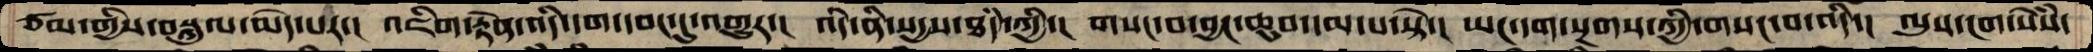ཙམ་གྱིས་བསྐུལ་མེད་པར་།  འཇིག་རྟེན་འདི་དག་དབང་དུ་འགྱུར་།  འདི་ནི་སདྱས་ཐཾད་ཀྱི་།  གསང་བ་བྱང་ཆུབ་དམ་པ་སྟེ་།  ཡང་དག་སྔགས་ཀྱི་གསང་བ་འདི་།  ལུས་ངག་སེཾས་
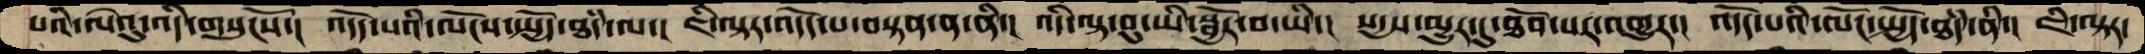པའི་ལེའུ་འདི་གསུངསོ་།  འདོད་པའི་ལོངས་སྤྱོད་ཐཾད་ལ་།  ཇི་ལྟར་འདོད་པ་བསྟན་ན་ནི་།  འདི་ལྟ་བུ་ཡི་སྦྱོར་བ་ཡི་།  སདྱས་མྱུར་དུ་ཐོབ་པར་འགྱུར་།  འདོད་པའི་ལོངས་སྤྱོད་ཐཾད་ནི་།  ཇི་ལྟར་
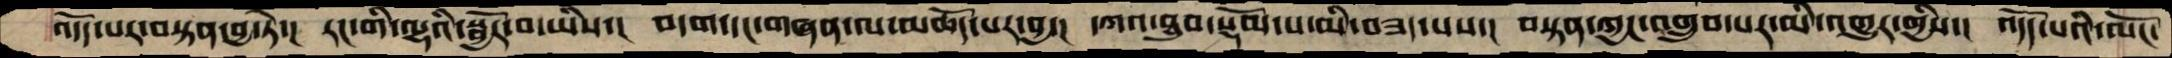འདོད་པར་བསྟན་བྱ་སྟེ་།  རང་གི་ལྷའི་སྦྱོར་བ་ཡིས་།  བདག་དང་གཞན་ལ་མཆོད་པར་བྱ་།  དཀའ་ཐུབ་སྡོམ་པ་མི་བཟད་པས་།  བསྟན་ཀྱང་འགྲུབ་པར་མི་འགྱུར་གྱིས་།  འདོད་པའི་ལོང་
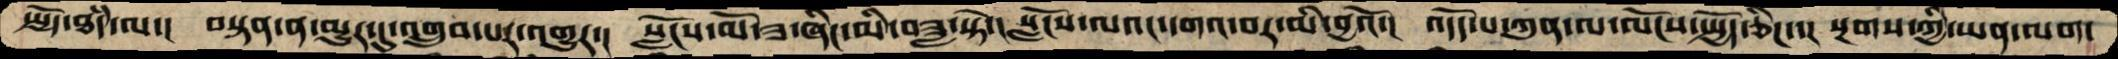སྤྱོད་ཐཾད་ལ་།  བསྟན་ན་མྱུར་དུ་འགྲུབ་པར་འགྱུར་།  སློངས་མོ་ཟ་ཞིང་མི་བཟླ་སྟེ་།  སློངས་ལའང་དགའ་བར་མི་བྱའོ་།  འདོད་པ་ཀུན་ལ་ལོངས་སྤྱོད་ཅིང་་།  སྔགས་ཀྱི་ཡན་ལག་
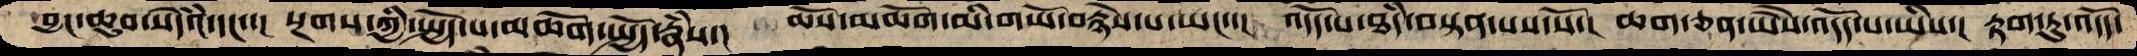བྱང་ཆུབ་སེདཾའ་དང་་།  སྔགས་ཀྱི་སྤྱོད་པ་མཆོག་སྤྱོད་རྣཾས་།  ཆོས་མཆོག་མི་གཡོ་བརྙེས་པ་ཡང་་།  འདོད་པ་ཐཾད་བསྟན་པས་སོ་།  ཆག་ཅན་ཡཻས་འདོད་པ་ཡིས་།  རྟག་ཏུ་འདོད་
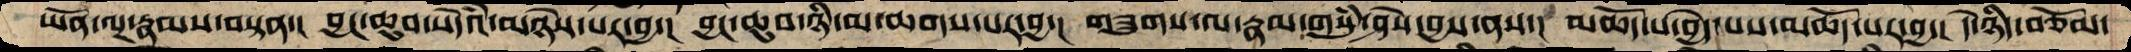ཡོན་ལྔ་རྣམས་བསྟན་།  བྱང་ཆུབ་སེདཾའ་མཉེས་པར་བྱ་།  བྱང་ཆུབ་ཉི་མ་ཆགས་པར་བྱ་།  གཟུགས་ལ་རྣམ་གསུཾ་ཤེས་བྱས་ནས་།  མཆོད་པ་བྱེད་པས་མཆོད་པར་བྱ་།  དེ་ཉིད་བཅོམ་
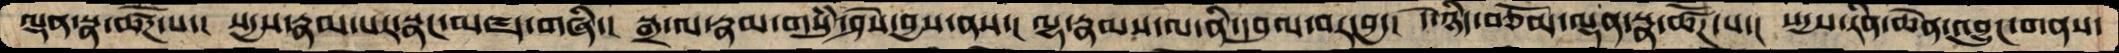ལྡན་སྣ་ཚོཌ་པ་།  སདྱས་རྣམ་པར་སྣང་མཛད་གཞི་།  སྒྲ་ལ་རྣམ་གསུཾ་ཤེས་བྱས་ནས་།  ལྷ་རྣམས་ལ་ནི་དབུལ་བར་བྱ་།  དེ་ཉིད་བཅོམ་ལྡན་སྣ་ཚོཌ་པ་།  སདྱས་རིན་ཆེན་འབྱུང་གནས་
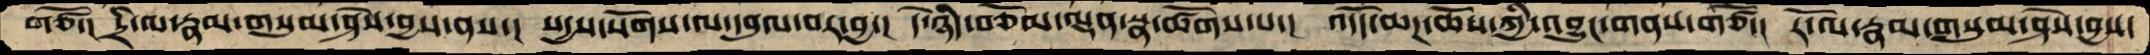གཙོ་།  དྲི་མ་རྣམ་གསུམ་ཤེས་བྱས་ནས་།  སདྱས་སོགས་ལ་དབུལ་བར་བྱ་།  དེ་ཉིད་བཅོམ་ལྡན་སྣ་ཚོགས་པ་།  འདོད་ཆཌ་ཆོས་ཀྱི་འབྱུང་གནས་གཙོ་།  རོ་ལ་རྣམ་གསུམ་ཤེས་བྱས་
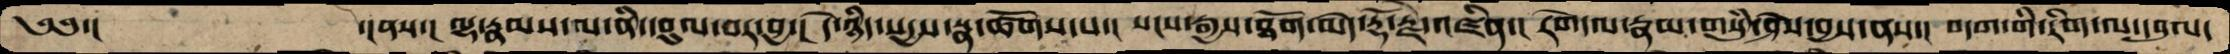༄༅་།     ་།ནས་།  ལྷ་རྣམས་ལ་ནི་དབུལ་བར་བྱ་།  དེ་ཉིད་སདྱས་སྣ་ཚོགས་པ་།  སངས་རྒྱས་ཐོག་མེད་རྡོ་རྗེ་འཛིན་།  རེག་ལ་རྣམ་གསུཾ་ཤེས་བྱས་ནས་།  བདག་གི་རིག་ལ་དབུལ་
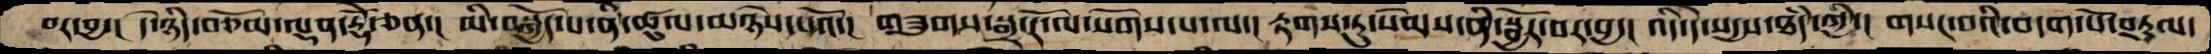བར་བྱ་།  དེ་ཉིད་བཅོམ་ལྡན་རྡོེ་ཅན་།  མི་བསྐྱོད་པ་ནི་ཚུལ་མཉེས་པའོ་།  གཟུགས་སྒྲ་རོ་ལ་སོགས་པ་ལ་།  རྟགས་ཏུ་སེམས་ནི་སྦྱོར་བར་བྱ་།  འདི་དེ་སདྱས་ཐཾད་ཀྱི་།  གསང་བའི་བདག་པོ་བཏུལ་
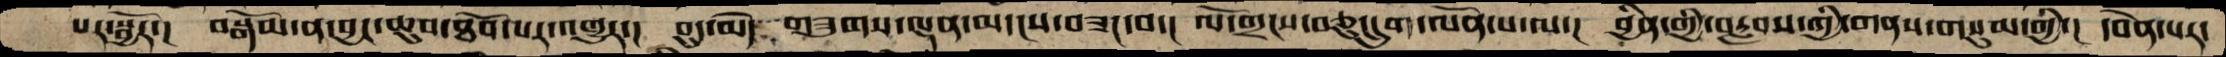པར་སྦྱོར་།  བསྒོམ་ན་བྱང་ཆུབ་ཐོབ་པར་འགྱུར་།  བུད་མེད་ གཟུགས་ལྡན་མདངས་བཟང་བ་།  ལོ་གྲངས་བཅུ་དྲུག་ལོན་པ་ལ་།  བྱིན་གྱིས་བརླབས་ཀྱི་གནས་གསུམ་གྱི་།  དབེན་པར་
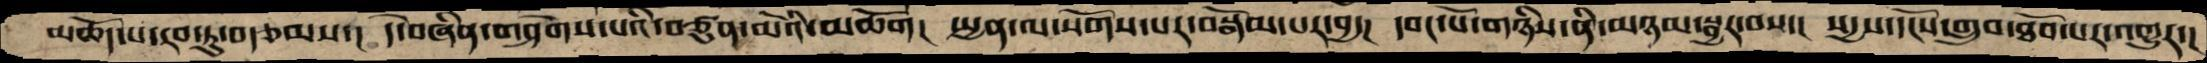མཆོད་པ་རབ་ཏུ་བརྩམས་།  དེ་བཞིན་གཤེགས་པའི་བཙུན་མོའི་མཆོག།  སྤྱན་ལ་སོགས་པར་བསྒོམ་པར་བྱ་།  དབང་པོ་གཉིས་ནི་མཉམ་སྦྱར་བས་།  སདྱས་དངོས་གྲུབ་ཐོབ་པར་འགྱུར་།
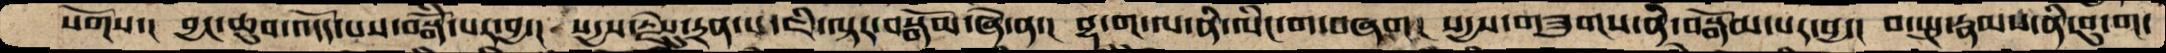སོགས་།  བྱང་ཆུབ་འདོད་པས་བསྒོཾ་པར་བྱ་།  སདྱས་རྗེས་སུ་དྲན་པ་ཇི་ལྟར་བསྒོམ་ཞེ་ན་།  བྷ་ག་ལ་ནི་ལིང་ག་བཞག།   སདྱས་གཟུགས་ནི་བསྒོམ་པར་བྱ་།  བ་སྤུ་རྣམས་ནི་བུ་ག་
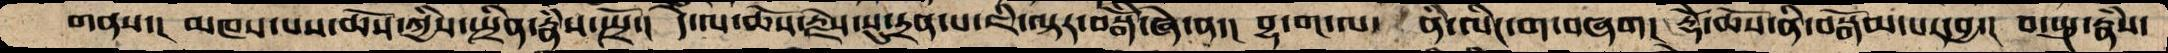གནས་།  མཁས་པས་ཆོས་ཀྱི་སྤྲིན་རྣཾས་སྤྲོ་།  དེ་ལ་ཆོས་རྗེས་སུ་དྲན་པ་ཇི་ལྟར་བསྒོཾ་ཞེ་ན་།  བྷ་ག་ལ་  ནི་ལིང་ག་བཞག།  རྡོེ་ཆོས་ནི་བསྒོམ་པར་བྱ་།  བ་སྤུ་རྣཾས་
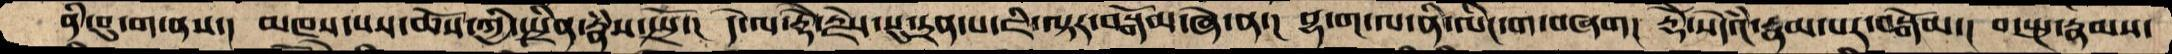ནི་བུ་ག་ནས་།  མཁས་པས་ཆོས་ཀྱི་སྤྲིན་རྣཾས་སྤྲོ་།  དེ་ལ་རྡོེ་རྗེས་སུ་དྲན་པ་ཇི་ལྟར་བསྒོམ་ཞེ་ན་།  བྷ་ག་ལ་ནི་ལིང་ག་བཞག།  རྡོེ་སེདཾའ་རྣམ་པར་བསྒོམ་།  བ་སྤུ་རྣམས་
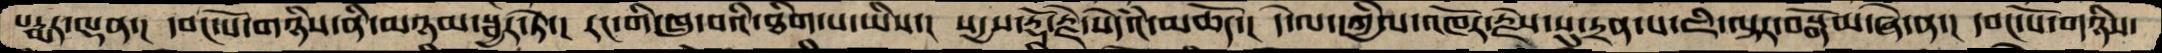པདྨར་ལྡན་།  དབང་པོ་གཉིས་ནི་མཉམ་སྦྱོར་ཏེ་།  རང་གི་ཁུ་བའི་ཐིག་པ་ཡིས་།  སདྱས་རྡོ་རྗེ་སེདཾའ་མཆོད་།  དེ་ལ་དཀྱིལ་འཁོར་རྗེས་སུ་དྲན་པ་ཇི་ལྟར་བསྒོམ་ཞེ་ན་།  དབང་པོ་གཉིས་
